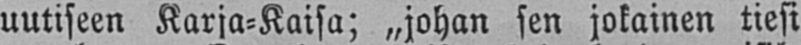uutiseen Karja-Kaisa; „johan sen jokainen tiesi
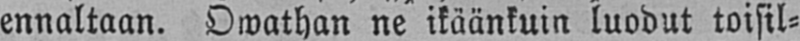ennaltaan. Owathan ne ikäänkuin luodut toisil-
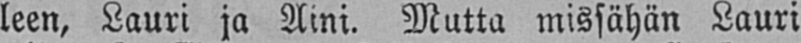leen, Lauri ja Aini. Mutta missähän Lauri
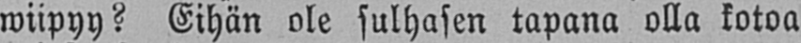wiipyy? Eihän ole sulhasen tapana olla kotoa
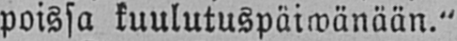poissa kuulutuspäiwänään."
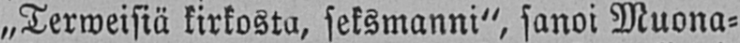„Terweisiä kirkosta, seksmanni", sanoi Muona-
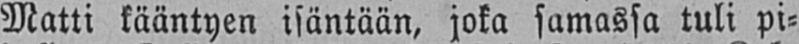Matti kääntyen isäntään, joka samassa tuli pi-
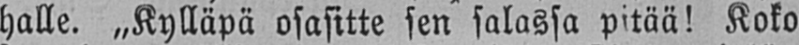halle. „Kylläpä osasitte sen salassa pitää! Koko
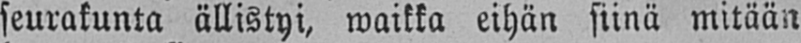seurakunta ällistyi, waikka eihän siinä mitään
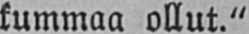kummaa ollut."
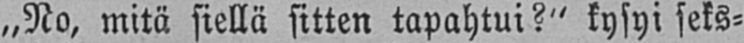„No, mitä siellä sitten tapahtui?" kysyi seks-
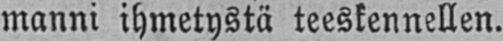manni ihmetystä teeskennellen.
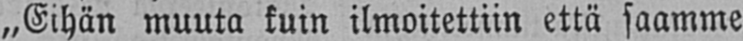„Eihän muuta kuin ilmoitettiin että saamme
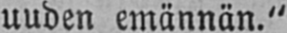uuden emännän."
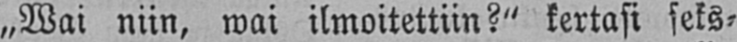„Wai niin, wai ilmoitettiin?" kertasi seks-
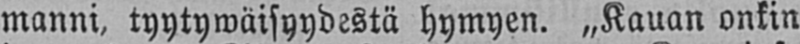manni, tyytywäisyydestä hymyen. „Kauan onkin
